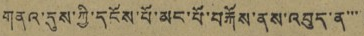གནའ་དུས་ཀྱི་དངོས་པོ་མང་པོ་བརྐོས་ནས་འབུད་ན་་་
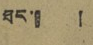ཐང་། །
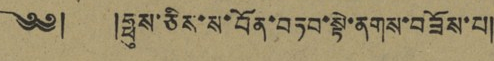༄༅། །ཧྥུས་ཅིས་ས་བོན་བཏབ་སྟེ་ནགས་བཟོས་པ།
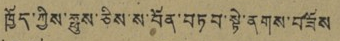ཁྱོད་ཀྱིས་ཧྥུས་ཅིས་ས་བོན་བཏབ་སྟེ་ནགས་བཟས
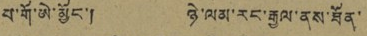པ་གོ་ཨེ་མྱོང་། ཉེ་ལམ་རང་རྒྱལ་ནས་ཐོན་
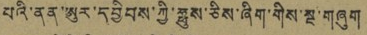པའི་ནན་ཨུར་དབྱིབས་ཀྱི་ཧྥུས་ཅིས་ཞིག་གིས་སྔ་གཞུག
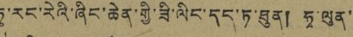ཏུ་རང་རེའི་ཞིང་ཆེན་གྱི་ཟི་ལིང་དད་ཏ་ཐུན། ཧྭ་ལུན་
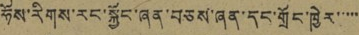ཧོས་རིགས་རང་སྐྱོང་ཞན་བཅས་ཞན་དང་གྲོང་ཁྱེར་་་་་
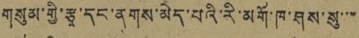གསུམ་གྱི་རྩྭ་དང་ནགས་མེད་པའི་རི་མགོ་ཁ་ཤས་སུ་་་་
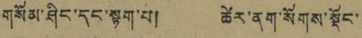གསོམ་ཤིང་དང་སྟག་པ། ཚེར་ནག་སོགས་སྡོང་
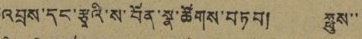འབྲས་དང་རྩྭའི་ས་བོན་སྣ་ཚོགས་བཏབ། ཧྥུས་་
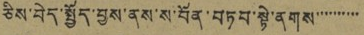ཅིས་བེད་སྤྱོད་བྱས་ནས་ས་བོན་བཏབ་སྟེ་ནགས་་་་་་་་་་
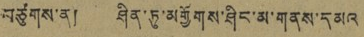བཙུགས་ན། ཤིན་ཏུ་མགྱོགས་ཤིང་མ་གནས་དམའ
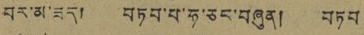བར་མ་ཟད། བཏབ་པ་ཧ་ཅང་བཞུན། བཏབ
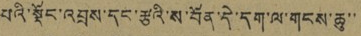པའི་སྡོང་འབྲས་དང་རྩའི་ས་བོན་དེ་དག་ལ་གངས་ཆུ་་
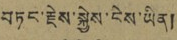བཏང་རྗེས་སྐྱེས་ངེས་ཡིན།
